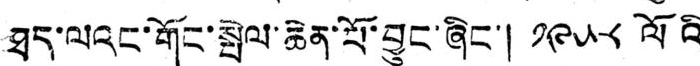ཐད་ལའང་གོང་སྤེལ་ཆེན་པོ་བྱུང་ཞིང་། ༡༩༥༨ ལོའི
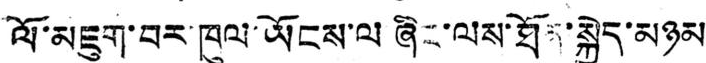ལོ་མཇུག་བར་ཁུལ་ཡོངས་ལ ཞིང་ལས་ཐོན་སྐྱེད་མཉམ
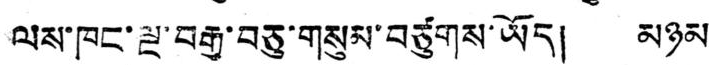ལས་ཁང་ལྔ་བརྒྱ་བཅུ་གསུམ་བཙུགས་ཡོད། མཉམ
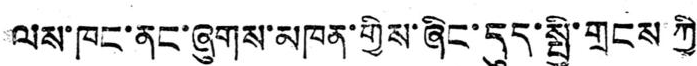ལས་ཁང་ནང་ཞུགས་མཁན་གྱིས་ཞིང་དུད་སྤྱི་གྲངས་ཀྱི་
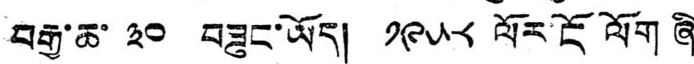བརྒྱ་ཆ་ ༣༠ བཟུང་ཡོད། ༡༩༥༨ ལོར་ངོ ལོག ཞི་
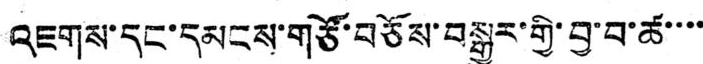འཇགས་དང་དམངས་གཙོ་བཅོས་བསྒྱུར་གྱི་བྱ་བ་ཚ་་་་
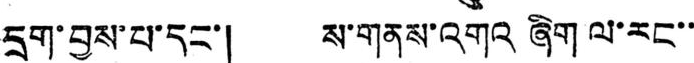དྲག་བྱས་པ་དང་། ས་གནས་འགའ ཞིག ལ་རང་་
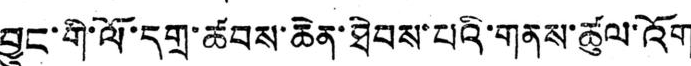བྱུང་གི་ལོ་དགྲ་ཚབས་ཆེན་ཐེབས་པའི་གནས་ཚུལ་འོག
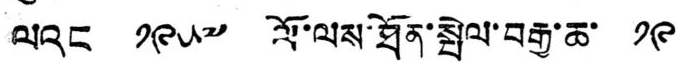ལའང ༡༩༥༧ ལོ་ལས་ཐོན་སྤེལ་བརྒྱ་ཆ་ ༡༩
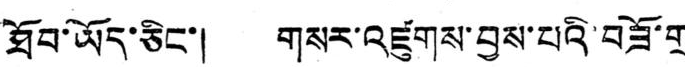ཐོབ་ཡོད་ཅིང་། གསར་འཛུགས་བྱས་པའི་བཟོ་གྲ་
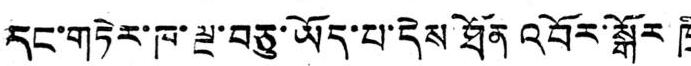དང་གཏེར་ཁ་ལྔ་བཅུ་ཡོད་པ་དེས་ཐོན འབོར་སྒོར ཁྲི
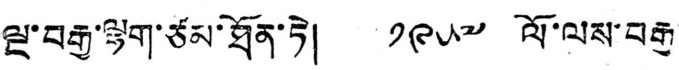ལྔ་བརྒྱ་ལྷག་ཙམ་ཐོན་ཏེ། ༡༩༥༧ ལོ་ལས་བརྒྱ་
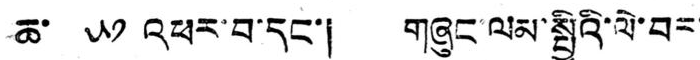ཆ་ ༥༡ འཕར་བ་དང་། གཞུང་ལམ་སྤྱིའི་ལེ་བར་
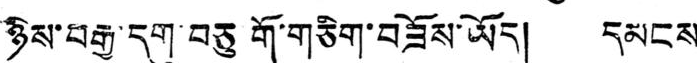ཉིས་བརྒྱ་དགུ་བཅུ གོ་གཅིག་བཟོས་ཡོད། དམངས
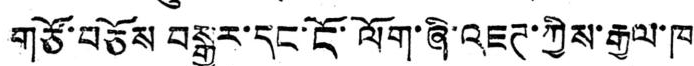གཙོ་བཅོས བསྒྱུར་དང་ངོ་ལོག་ཞི་འཇཊ་ཀྱིས་རྒྱལ་ཁ
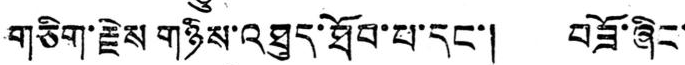གཅིག་རྗེས གཉིས་འཐུད་ཐོབ་པ་དང་། བཟོ་ཞིང་་
